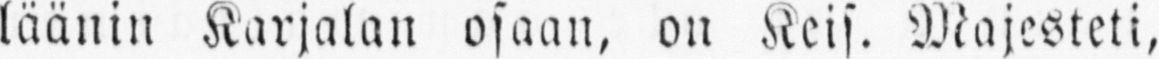läänin Karjalan osaan, on Keis. Majesteti,
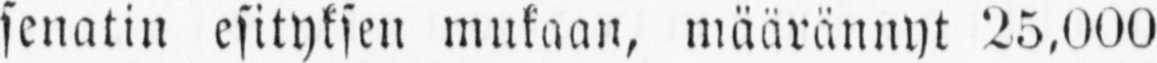senatin esityksen mukaan, määrännyt 25,000
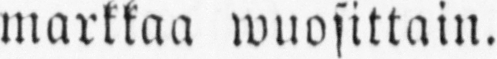markkaa wuosittain.
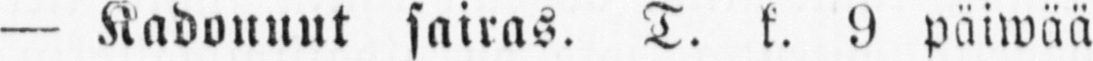— Kadonnut sairas. T. k. 9 päiwää
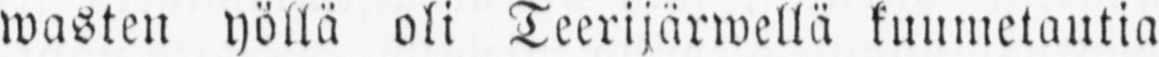wasten yöllä oli Teerijärwellä kuumetautia
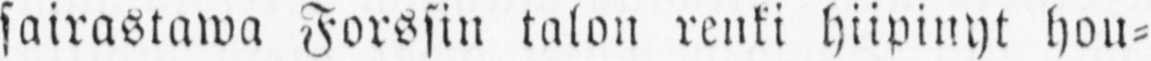sairastawa Forssin talon renki hiipinyt hou-
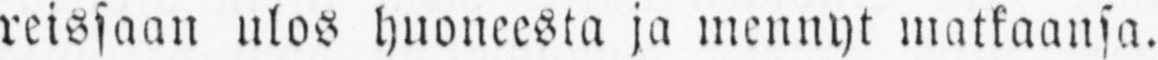reissaan ulos huoneesta ja mennyt matkaansa.
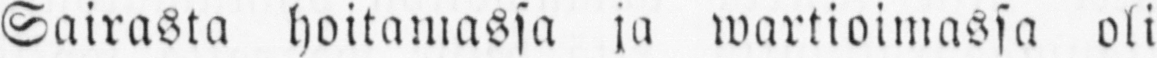Sairasta hoitamassa ja wartioimassa oli
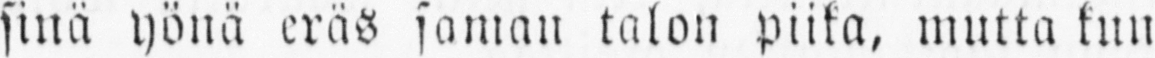sinä yönä eräs saman talon piika, mutta kun
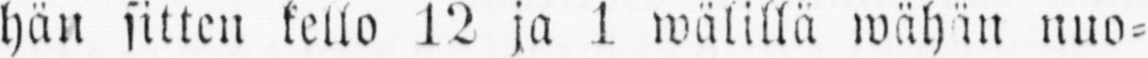hän sitten kello 12 ja 1 wälillä wähän nuo-
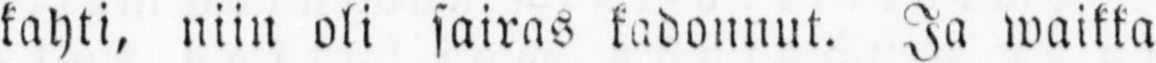kahti, niin oli sairas kadonnut. Ja waikka
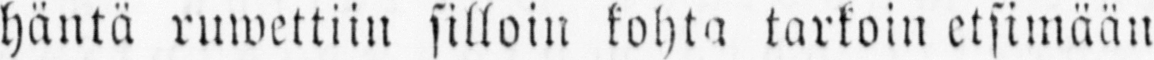häntä ruwettiin silloin kohta tarkoin etsimään
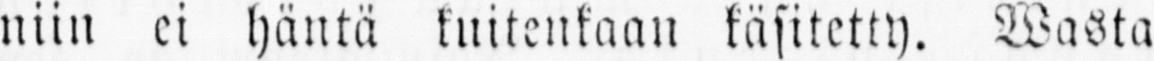niin ei häntä kuitenkaan käsitetty. Wasta
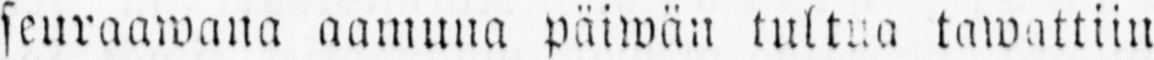seuraawana aamuna päiwän tultua tawattiin
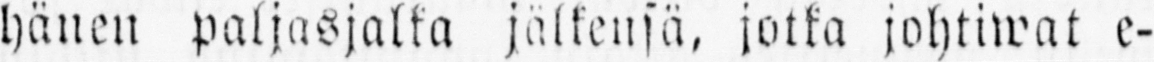hänen paljasjalka jälkensä, jotka johtiwat e-
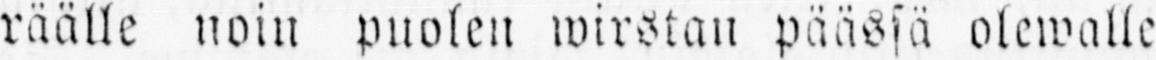räälle noin puolen wirstan päässä olewalle
